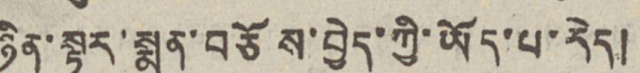ཉིན་སྟར་སྨན་བཅོས་བྱེད་ཀྱི་ཡོད་པ་རེད།
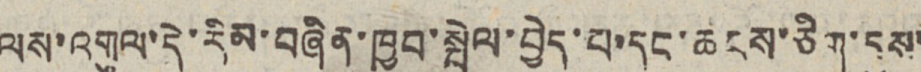ལས་འགུལ་དེ་རིམ་བཞིན་ཁྱབ་སྤེལ་བྱེད་པ་དང་ཆངས་ཅིག་དུས་
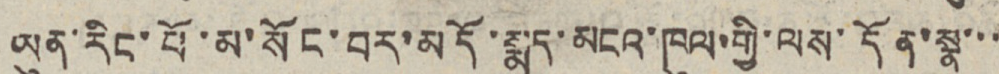ཡུན་རིང་པོ་མ་སོང་བར་མདོ་སྨད་མངའ་ཁུལ་གྱི་ལས་དོན་སྣ་་་
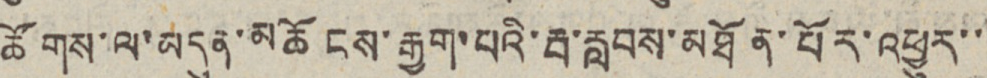ཚོགས་ལ་མདུན་མཆོངས་རྒྱག་པའི་རྦ་རླབས་མཐོན་པོར་འཕྱུར་་
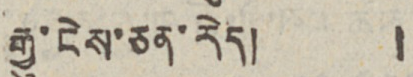རྒྱུ་ངེས་ཅན་རེད། །
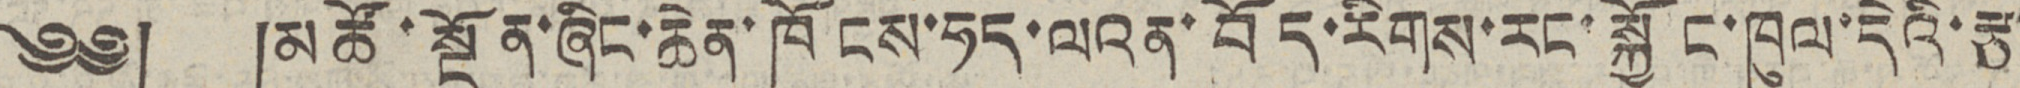༄༅། །མཚོ་སྔོན་ཞིང་ཆེན་ཁོངས་ཧད་ལའན་བོད་རིགས་རང་སྐྱོང་ཁུལ་དེའི་རྩ་
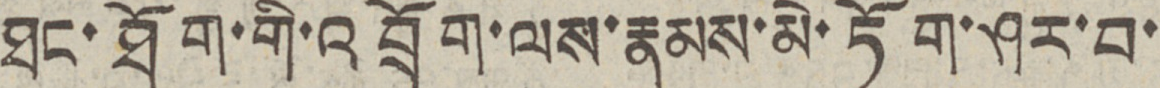ཐང་ཐོག་གི་འབྲོག་ལས་རྣམས་མེ་ཏོག་ཤར་བ་
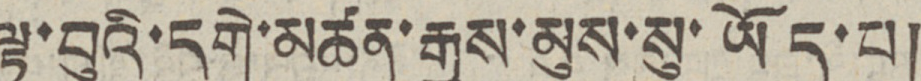ལྟ་བུའི་དགེ་མཚན་རྒྱས་མུས་སུ་ཡོད་པ།
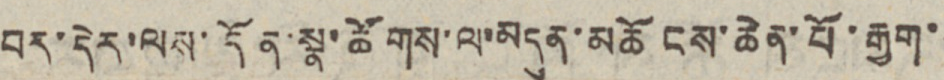བར་དེར་ལས་དོན་སྣ་ཚོགས་ལ་མདུན་མཆོངས་ཆེན་པོ་རྒྱག་
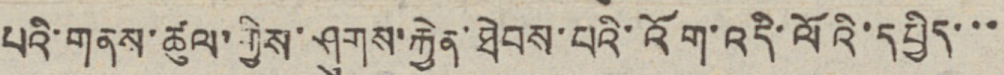པའི་གནས་ཚུལ་གྱིས་ཤུགས་རྐྱེན་ཐེབས་པའི་འོག་འདི་ལོའི་དཔྱིད་་་
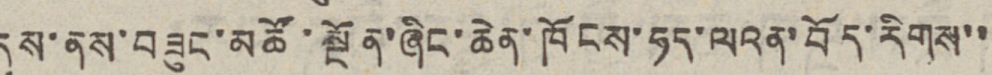དུས་ནས་བཟུང་མཚོ་སྔོན་ཞིང་ཆེན་ཁོངས་ཧད་ལའན་བོད་རིགས་་
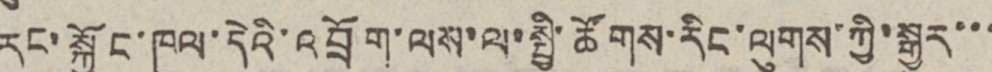རང་སྐྱོང་ཁུལ་དེའི་འབྲོག་ལས་ལ་སྤྱི་ཚོགས་རིང་ལུགས་ཀྱི་སྒྱུར་་་
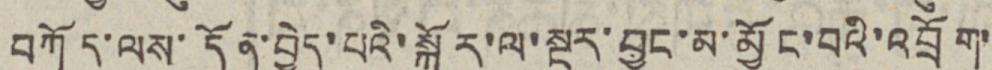བཀོད་ལས་དོན་བྱེད་པའི་སྐོར་ལ་སྔར་བྱུང་མ་མྱོང་བའི་འབྲོག་་
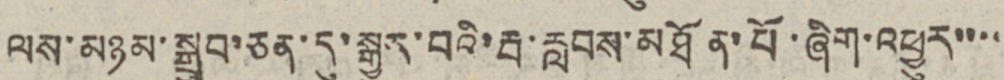ལས་མཉམ་སྒྲུབ་ཅན་དུ་སྒྱུར་བའི་རྦ་རླབས་མཐོན་པོ་ཞིག་འཕྱུར་་་་
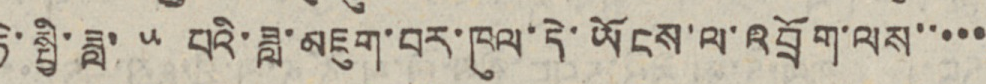ཏེ་སྤྱི་ཟླ་ ༥ པའི་ཟླ་མཇུག་པར་ཁུལ་དེ་ཡོངས་ལ་འབྲོག་ལས་་་་་
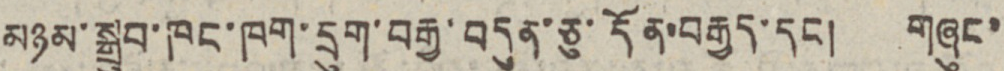མཉམ་སྒྲུབ་ཁང་ཁག་དྲུག་བརྒྱ་བདུན་ཅུ་དོན་བརྒྱད་དང། གཞུང་
